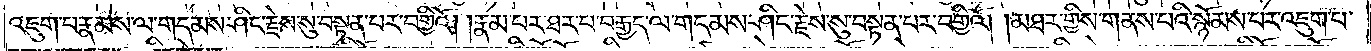འཇུག་པ་རྣམས་ལ་གདམས་ཤིང་རྗེས་སུ་བསྟན་པར་བགྱིའོ། །རྣམ་པར་ཐར་པ་བརྒྱད་ལ་གདམས་ཤིང་རྗེས་སུ་བསྟན་པར་བགྱིའོ། །མཐར་གྱིས་གནས་བའི་སྙོམས་པར་འཇུག་པ་
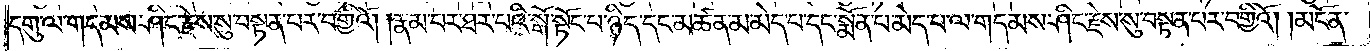དགུ་ལ་གདམས་ཤིང་རྗེས་སུ་བསྟན་བར་བགྱིའོ། །རྣམ་པར་ཐར་པའི་སྒོ་སྟོང་བ་ཉིད་དང་མཚན་མ་མེད་པ་དང་སྨོན་པ་མེད་པ་ལ་གདམས་ཤིང་རྗེས་སུ་བསྟན་པར་བགྱིའོ། །མངོན་
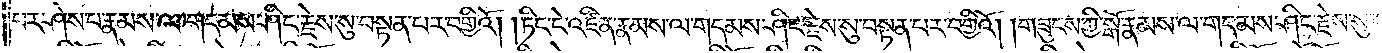བར་ཤེས་པ་རྣམས་ལ་གདམས་ཤིང་རྗེས་སུ་བསྟན་པར་བགྱིའོ། །ཏིང་ངེ་འཛིན་རྣམས་ལ་གདམས་ཤིང་རྗེས་སུ་བསྟན་པར་བགྱིའོ། །གཟུངས་ཀྱི་སྒོ་རྣམས་ལ་གདམས་ཤིང་རྗེས་སུ་
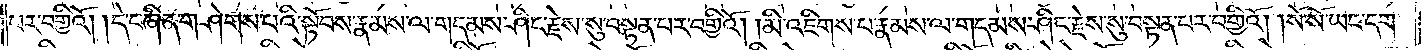པར་བགྱིའོ། །དེ་བཞིན་གཤེགས་བའི་སྟོབས་རྣམས་ལ་གདམས་ཤིང་རྗེས་སུ་བསྟན་བར་བགྱིའོ། །མི་འཇིགས་པ་རྣམས་ལ་གདམས་ཤིང་རྗེས་སུ་བསྟན་པར་བགྱིའོ། །སོ་སོ་ཡང་དག་
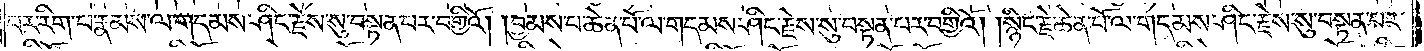པར་རིག་པ་རྣམས་ལ་གདམས་ཤིང་རྗེས་སུ་བསྟན་པར་བགྱིའོ། །བྱམས་པ་ཆེན་པོ་ལ་གདམས་ཤིང་རྗེས་སུ་བསྟན་པར་བགྱིའོ། །སྙིང་རྗེ་ཆེན་པོ་ལ་གདམས་ཤིང་རྗེས་སུ་བསྟན་པར་
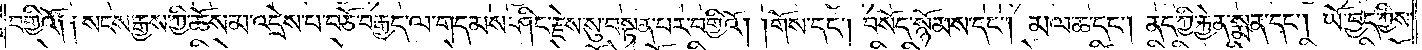བགྱིའོ༑ ༑སངས་རྒྱས་ཀྱི་ཆོས་མ་འདྲེས་པ་བཅོ་བརྒྱད་ལ་གདམས་ཤིང་རྗེས་སུ་བསྟན་པར་བགྱིའོ། །གོས་དང༌། བསོད་སྙོམས་དང༌། མལ་ཆ་དང༌། ནད་ཀྱི་རྐྱེན་སྨན་དང༌། ཡོ་བྱད་ཀྱིས་
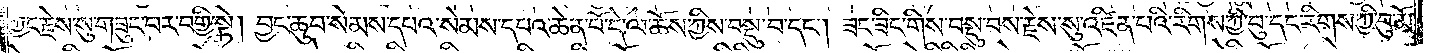ཀྱང་རྗེས་སུ་བཟུང་བར་བགྱི་སྟེ། བྱང་ཆུབ་སེམས་དབའ་སེམས་དཔའ་ཆེན་པོ་དེ་ལ་ཆོས་ཀྱིས་བསྡུ་བ་དང༌། ཟང་ཟིང་གིས་བསྡུ་བས་རྗེས་སུ་འཛིན་པའི་རིགས་ཀྱི་བུའམ་རིགས་ཀྱི་བུ་མོ་
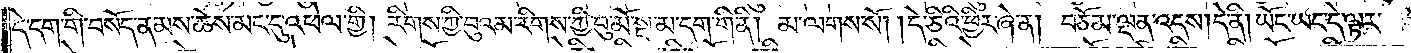དེ་དག་གི་བསོད་ནམས་ཆེས་མང་དུ་འཕེལ་གྱི། རིགས་ཀྱི་བུ་དང་རིགས་ཀྱི་བུ་མོ་སྔ་མ་དག་གི་ནི། མ་ལགས་སོ། །དེ་ཅིའི་ཕྱིར་ཞེ་ན། བཅོམ་ལྡན་འདས། དེ་ནི། ཡོང་ཡང་དེ་ལྟར་
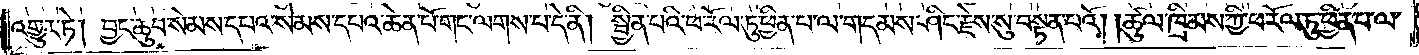འགྱུར་ཏེ། བྱང་ཆུབ་སེམས་དཔའ་སེམས་དཔའ་ཆེན་པོ་གང་ལགས་པ་དེ་ནི། སྦྱིན་པའི་ཕ་རོལ་ཏུ་ཕྱིན་པ་ལ་གདམས་ཤིང་རྗེས་སུ་བསྟན་པའོ། །ཚུལ་ཁྲིམས་ཀྱི་ཕ་རོལ་ཏུ་ཕྱིན་པ་ལ་
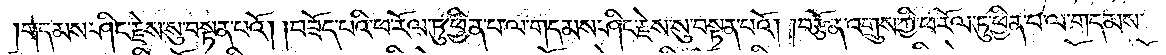གདམས་ཤིང་རྗེས་སུ་བསྟན་པའོ། །བཟོད་པའི་ཕ་རོལ་ཏུ་ཕྱིན་པ་ལ་གདམས་ཤིང་རྗེས་སུ་བསྟན་པའོ། །བརྩོན་འགྲུས་ཀྱི་ཕ་རོལ་ཏུ་ཕྱིན་པ་ལ་གདམས་
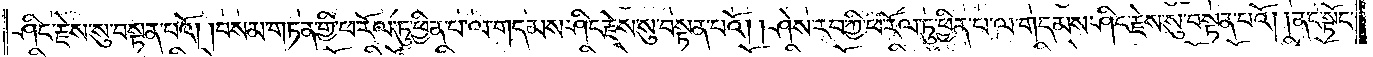ཤིང་རྗེས་སུ་བསྟན་པའོ། །བསམ་གཏན་གྱི་ཕ་རོལ་ཏུ་ཕྱིན་པ་ལ་གདམས་ཤིང་རྗེས་སུ་བསྟན་པའོ། །ཤེས་རབ་ཀྱི་ཕ་རོལ་ཏུ་ཕྱིན་པ་ལ་གདམས་ཤིང་རྗེས་སུ་བསྟན་པའོ། །ནང་སྟོང་
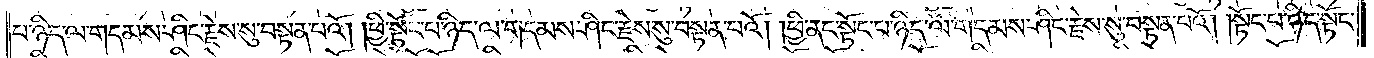པ་ཉིད་ལ་གདམས་ཤིང་རྗེས་སུ་བསྟན་པའོ། །ཕྱི་སྟོང་བ་ཉིད་ལ་གདམས་ཤིང་རྗེས་སུ་བསྟན་པའོ། །ཕྱི་ནང་སྟོང་པ་ཉིད་ལ་གདམས་ཤིང་རྗེས་སུ་བསྟན་པའོ། །སྟོང་པ་ཉིད་སྟོང་
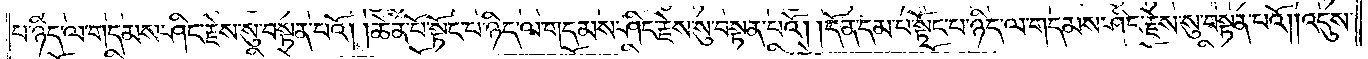པ་ཉིད་ལ་གདམས་ཤིང་རྗེས་སུ་བསྟན་པའོ། །ཆེན་པོ་སྟོང་པ་ཉིད་ལ་གདམས་ཤིང་རྗེས་སུ་བསྟན་པའོ། །དོན་དམ་པ་སྟོང་པ་ཉིད་ལ་གདམས་ཤིང་རྗེས་སུ་བསྟན་པའོ། །འདུས་
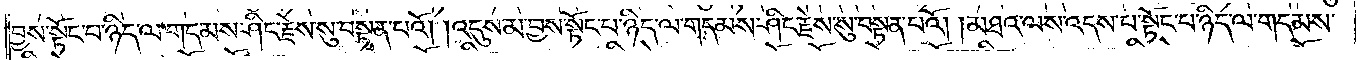བྱས་སྟོང་པ་ཉིད་ལ་གདམས་ཤིང་རྗེས་སུ་བསྟན་པའོ། །འདུས་མ་བྱས་སྟོང་པ་ཉིད་ལ་གདམས་ཤིང་རྗེས་སུ་བསྟན་པའོ། །མཐའ་ལས་འདས་བ་སྟོང་པ་ཉིད་ལ་གདམས་
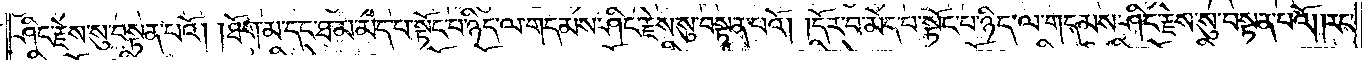ཤིང་རྗེས་སུ་བསྟན་པའོ། །ཐོག་མ་དང་ཐ་མ་མེད་པ་སྟོང་བ་ཉིད་ལ་གདམས་ཤིང་རྗེས་སུ་བསྟན་པའོ། །དོར་བ་མེད་པ་སྟོང་པ་ཉིད་ལ་གདམས་ཤིང་རྗེས་སུ་བསྟན་པའོ། །རང་
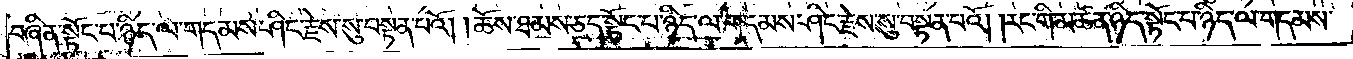བཞིན་སྟོང་པ་ཉིད་ལ་གདམས་ཤིང་རྗེས་སུ་བསྟན་པའོ། །ཆོས་ཐམས་ཅད་སྟོང་བ་ཉིད་ལ་གདམས་ཤིང་རྗེས་སུ་བསྟན་པའོ། །རང་གི་མཚན་ཉིད་སྟོང་པ་ཉིད་ལ་གདམས་
